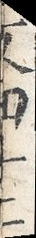文四十二
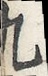九
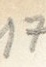17
